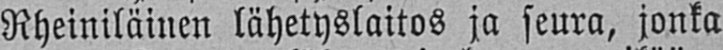Rheiniläinen lähetyslaitos ja seura, jonka
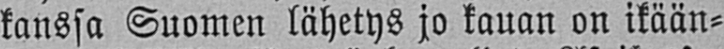kanssa Suomen lähetys jo kauan on ikään-
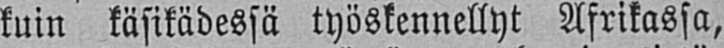kuin käsikädessä työskennellyt Afrikassa,
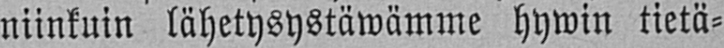niinkuin lähetysystäwämme hywin tietä-
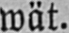wät.
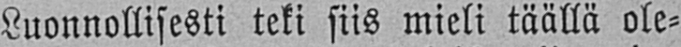Luonnollisesti teki siis mieli täällä ole-
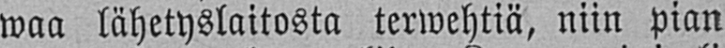waa lähetyslaitosta terwehtiä, niin pian
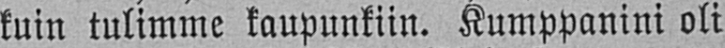kuin tulimme kaupunkiin. Kumppanini oli
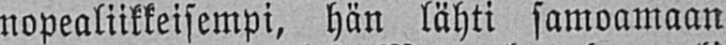nopealiikkeisempi, hän lähti samoamaan
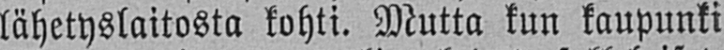lähetyslaitosta kohti. Mutta kun kaupunki
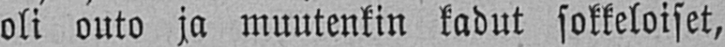oli outo ja muutenkin kadut sokkeloiset,
